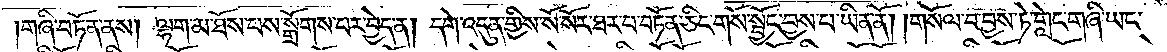གཞི་བཏོན་ནས། ལྷག་མ་ཐོས་པས་སྒྲོགས་པར་བྱེད་ན། དགེ་འདུན་གྱིས་སོ་སོར་ཐར་པ་བཏོན་ཅིང་གསོ་སྦྱོང་བྱས་པ་ཡིན་ནོ། །གསོལ་བ་བྱས་ཏེ་གླེང་གཞི་ཡང་
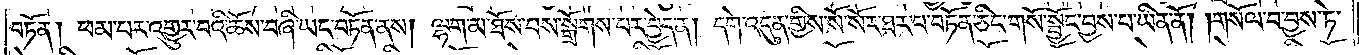བཏོན། ཕམ་པར་འགྱུར་བའི་ཆོས་བཞི་ཡང་བཏོན་ནས། ལྷག་མ་ཐོས་པས་སྒྲོགས་པར་བྱེད་ན། དགེ་འདུན་གྱིས་སོ་སོར་ཐར་པ་བཏོན་ཅིང་གསོ་སྦྱོང་བྱས་པ་ཡིན་ནོ། །གསོལ་བ་བྱས་ཏེ་
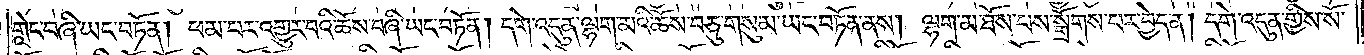གླེང་བཞི་ཡང་བཏོན། ཕམ་པར་འགྱུར་བའི་ཆོས་བཞི་ཡང་བཏོན། དགེ་འདུན་ལྷག་མའི་ཆོས་བཅུ་གསུམ་ཡང་བཏོན་ནས། ལྷག་མ་ཐོས་པས་སྒྲོགས་པར་བྱེད་ན། དགེ་འདུན་གྱིས་སོ་
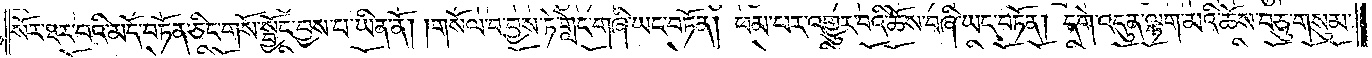སོར་ཐར་བའི་མདོ་བཏོན་ཅིང་གསོ་སྦྱོང་བྱས་པ་ཡིན་ནོ། །གསོལ་བ་བྱས་ཏེ་གླེང་གཞི་ཡང་བཏོན། ཕམ་པར་འགྱུར་བའི་ཆོས་བཞི་ཡང་བཏོན། དགེ་འདུན་ལྷག་མའི་ཆོས་བཅུ་གསུམ་
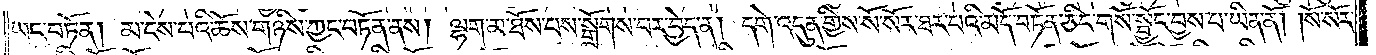ཡང་བཏོན། མ་ངེས་པའི་ཆོས་གཉིས་ཀྱང་བཏོན་ནས། ལྷག་མ་ཐོས་པས་སྒྲོགས་པར་བྱེད་ན། དགེ་འདུན་གྱིས་སོ་སོར་ཐར་པའི་མདོ་བཏོན་ཅིང་གསོ་སྦྱོང་བྱས་པ་ཡིན་ནོ། །སོ་སོར་
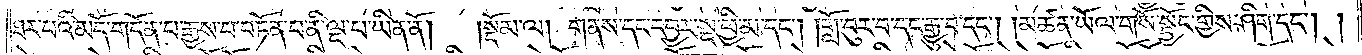ཐར་པའི་མདོ་གདོན་པ་རྒྱས་པ་བཏོན་པ་ནི་ལྔ་པ་ཡིན་ནོ། །སྡོམ་ལ། གནས་དང་དབྱར་སྔ་ཕྱི་མ་དང༌། །གློ་བུར་བ་དང་རྒྱུ་བ་དང༌། །མཚན་ཡོལ་གསོ་སྦྱོང་གྱིས་ཤིག་དང༌། །
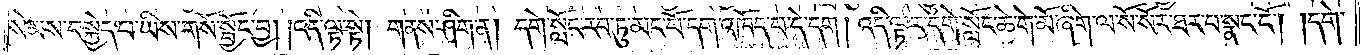སེམས་བསྐྱེད་པ་ཡིས་གསོ་སྦྱོང་བྱ། །འདི་ལྟ་སྟེ། གནས་ཤིག་ན། དགེ་སློང་རབ་ཏུ་མང་པོ་དག་འཁོད་པ་དེ་དག། འདི་ལྟར་དགེ་སློང་ཆེ་གེ་མོ་ཞིག་ལ་སོ་སོར་ཐར་པ་སྣང་ངོ༌། །དགེ་
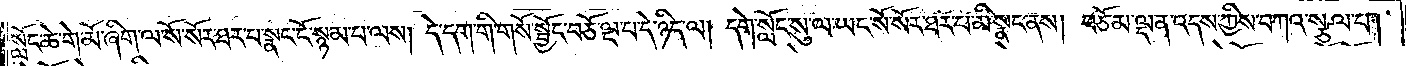སློང་ཆེ་གེ་མོ་ཞིག་ལ་སོ་སོར་ཐར་པ་སྣང་ངོ་སྙམ་པ་ལས། དེ་དག་གི་གསོ་སྦྱོང་བཅོ་ལྔ་པ་དེ་ཉིད་ལ། དགེ་སློང་སུ་ལ་ཡང་སོ་སོར་ཐར་པ་མི་སྣང་ནས། བཅོམ་ལྡན་འདས་ཀྱིས་བཀའ་སྩལ་པ།
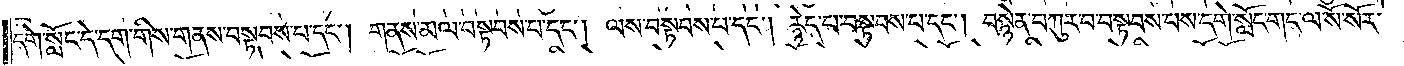དགེ་སློང་དེ་དག་གིས་གནས་བསྟབས་པ་དང༌། གནས་མལ་བསྟབས་པ་དང༌། ལས་བསྟབས་པ་དང༌། རྙེད་པ་བསྟབས་པ་དང༌། བསྙེན་བཀུར་བ་བསྟབས་པས་དགེ་སློང་གང་ལ་སོ་སོར་
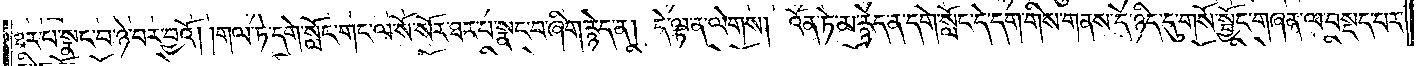ཐར་པ་སྣང་བ་ཉེ་བར་བྱའོ། །གལ་ཏེ་དགེ་སློང་གང་ལ་སོ་སོར་ཐར་པ་སྣང་བ་ཞིག་རྙེད་ན། དེ་ལྟ་ན་ལེགས། འོན་ཏེ་མ་རྙེད་ན་དགེ་སློང་དེ་དག་གིས་གནས་དེ་ཉིད་དུ་གསོ་སྦྱོང་གཞན་ལ་བསྡད་པར་
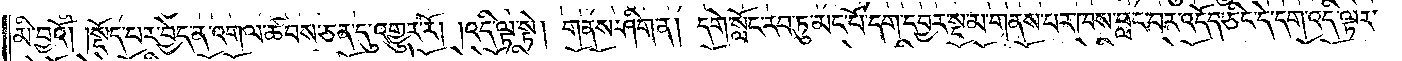མི་བྱའོ། །སྡོད་པར་བྱེད་ན་འགལ་ཚབས་ཅན་དུ་འགྱུར་རོ། །འདི་ལྟ་སྟེ། གནས་ཤིག་ན། དགེ་སློང་རབ་ཏུ་མང་པོ་དག་དབྱར་སྔ་མ་གནས་པར་ཁས་བླང་བར་འདོད་ཅིང་དེ་དག་འདི་ལྟར་
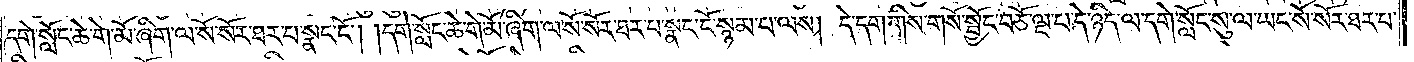དགེ་སློང་ཆེ་གེ་མོ་ཞིག་ལ་སོ་སོར་ཐར་པ་སྣང་ངོ༌། །དགེ་སློང་ཆེ་གེ་མོ་ཞིག་ལ་སོ་སོར་ཐར་པ་སྣང་ངོ་སྙམ་པ་ལས། དེ་དག་གིས་གསོ་སྦྱོང་བཅོ་ལྔ་པ་དེ་ཉིད་ལ་དགེ་སློང་སུ་ལ་ཡང་སོ་སོར་ཐར་པ་
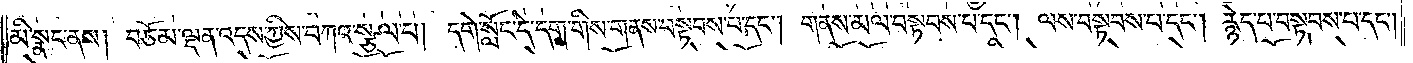མི་སྣང་ནས། བཅོམ་ལྡན་འདས་ཀྱིས་བཀའ་སྩལ་པ། དགེ་སློང་དེ་དག་གིས་གནས་བསྟབས་པ་དང༌། གནས་མལ་བསྟབས་པ་དང༌། ལས་བསྟབས་པ་དང༌། རྙེད་པ་བསྟབས་པ་དང༌།
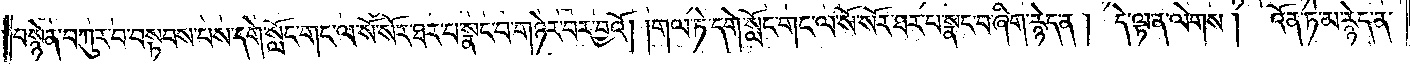བསྙེན་བཀུར་བ་བསྟབས་པས་དགེ་སློང་གང་ལ་སོ་སོར་ཐར་པ་སྣང་བ་གཉེར་བར་བྱའོ། །གལ་ཏེ་དགེ་སློང་གང་ལ་སོ་སོར་ཐར་པ་སྣང་བ་ཞིག་རྙེད་ན། དེ་ལྟ་ན་ལེགས། འོན་ཏེ་མ་རྙེད་ན་
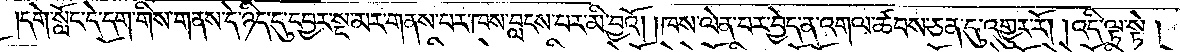དགེ་སློང་དེ་དག་གིས་གནས་དེ་ཉིད་དུ་དབྱར་སྔ་མར་གནས་པར་ཁས་བླངས་པར་མི་བྱའོ། །ཁས་ལེན་པར་བྱེད་ན་འགལ་ཚབས་ཅན་དུ་འགྱུར་རོ། །འདི་ལྟ་སྟེ
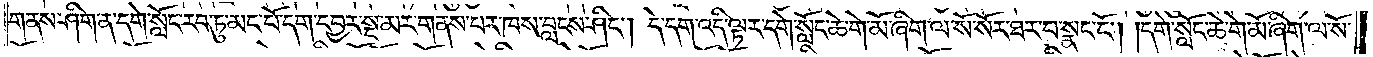གནས་ཤིག་ན་དགེ་སློང་རབ་ཏུ་མང་པོ་དག་དབྱར་སྔ་མར་གནས་པར་ཁས་བླངས་ཤིང༌། དེ་དག་འདི་ལྟར་དགེ་སློང་ཆེ་གེ་མོ་ཞིག་ལ་སོ་སོར་ཐར་བ་སྣང་ངོ༌། །དགེ་སློང་ཆེ་གེ་མོ་ཞིག་ལ་སོ་
